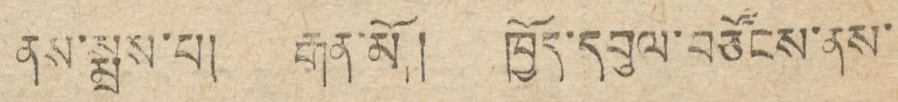ནས་སྨྲས་པ། རྒན་མོ། ཁྱོད་དབུལ་བཙོངས་ནས་
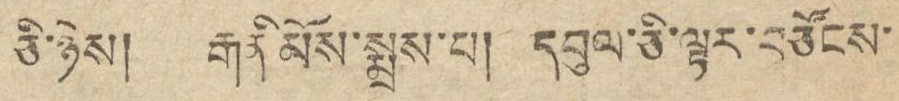ཅི་ཉེས། རྒནི མོས་སྨྲས་པ། དབུལ་ཅི་ལྟར་བཙོངས་
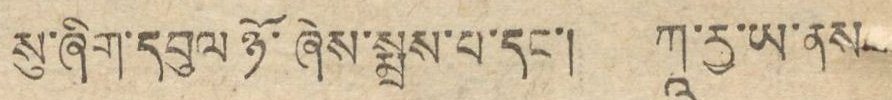སུ་ཞིག་དབུལ་ཉོ་ཞེས་སྨྲས་པ་དང་། ཀ་རྱ་ཡ་ནས་
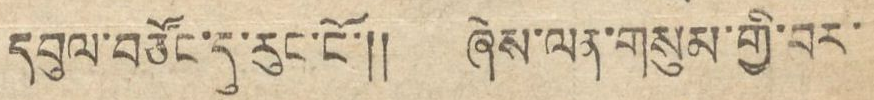དབུལ་བཙོང་དུ་རུང་ངོ་།། ཞེས་ལན་གསུམ་གྱི་བར་
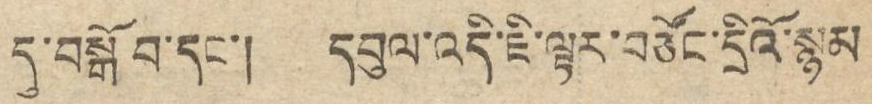དུ་བསྒོ བ་དང་། དབུལ་འདི་ཇི་ལྟར་བཙོང་དྲིའོ་སྙམ
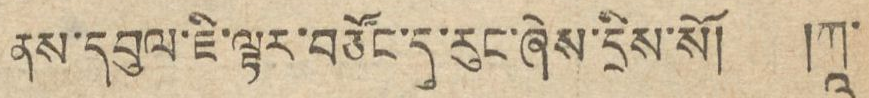ནས་དབུལ་ཇི་ལྟར་བཙོང་དུ་རུང་ཞེས་དྲིས་སོ། །ཀཱ་
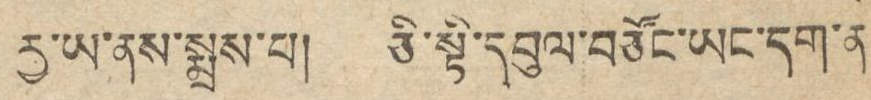རྱ་ཡ་ནས་སྨྲས་པ། ཅི་སྟི་དབུལ་བཙོང་ཡང་དག་ན་
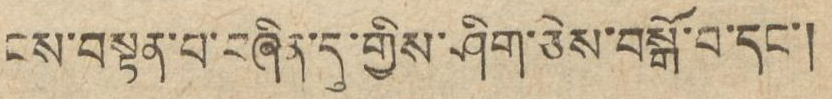ངས་བསྟན་པ་བཞིན་དུ་གྱིས་ཤིག་ཅེས་བསྒོ་བ་དང་།
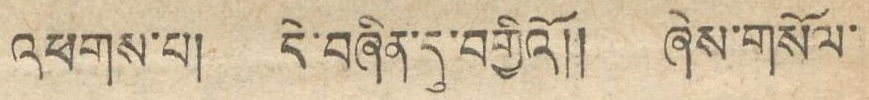འཕགས་པ། དེ་བཞིན་དུ་བགྱིའོ།། ཞེས་གསོལ་
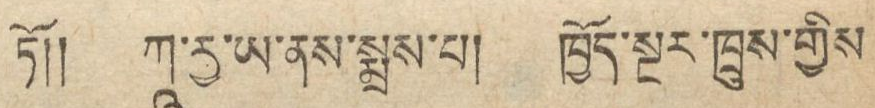ཏོ།། ཀཱ་རྱ་ཡ་ནས་སྨྲས་པ། ཁྱོད་སྔར་ཁྲུས་གྱིས
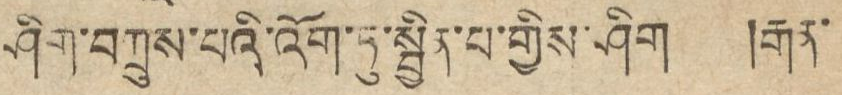ཤིག་བཀྲུས་པའི་འོག་ཏུ་སྦྱིན་པ་གྱིས་ཤིག །རྒན་
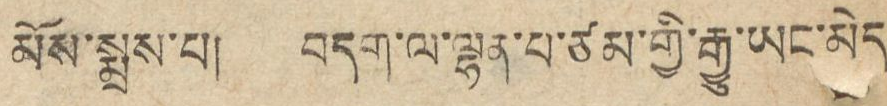མོས་སྨྲས་པ། བདག་ལ་ལྷན་པ་ཙམ་གྱི་རྒྱུ་ཡང་མེད་
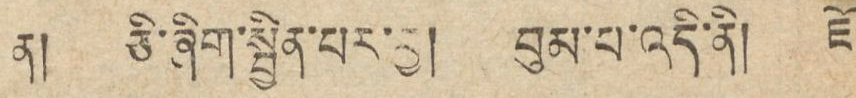ན། ཅི་ཞིག་སྦྱིན་པར་བྱ། བུམ་པ་འདི་ནི། ཇོ་
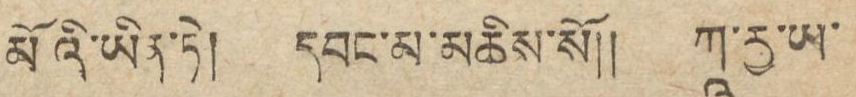མོའི་ཡིན་ཏེ། དབང་མ་མཆིས་སོ།། ཀ་རྱ་ཡ་
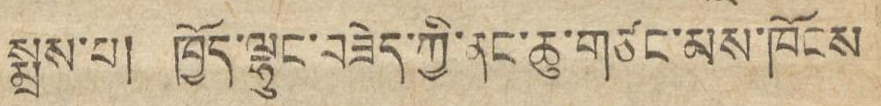སྨྲས་པ། ཁྱོད་ལྷུང་བཟེད་ཀྱི་ནང་ཆུ་གཙང་མས་ཁོངས་
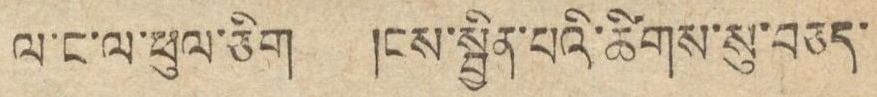ལ་ང་ལ་ཕུལ་ཅིག །ངས་སྦྱིན་པའི་ཚིགས་སུ་བཅད་
